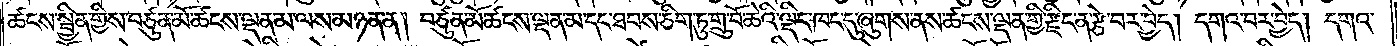ཚངས་སྦྱིན་གྱིས་བཙུན་མོ་ཚངས་ལྡན་མ་ལས་མཉན་ན། བཙུན་མོ་ཚངས་ལྡན་མ་དང་ཐབས་ཅིག་ཏུ་གྲུ་བོ་ཆེའི་ལྡིང་ཁང་དུ་ཞུགས་ནས་ཚངས་ལྡན་གྱི་རྫིང་ན་རྩེ་བར་བྱེད། དགའ་བར་བྱེད། དགའ་
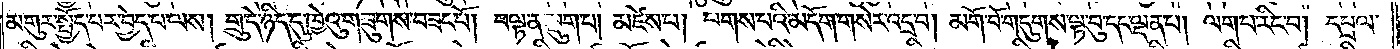མགུར་སྤྱོད་པར་བྱེད་པ་ལས། གྲུ་དེ་ཉིད་དུ་ཁྱེའུ་གཟུགས་བཟང་པོ། བལྟ་ན་སྡུག་པ། མཛེས་པ། པགས་པའི་མདོག་གསེར་འདྲ་བ། མགོ་བོ་གདུགས་ལྟ་བུ་དང་ལྡན་པ། ལག་པ་རིང་བ། དཔྲལ་
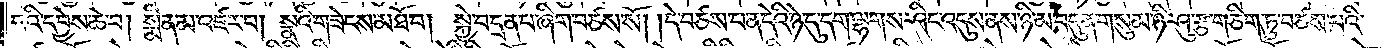བའི་དབྱེས་ཆེ་བ། སྨིན་མ་འཛར་བ། སྣའི་གཟེངས་མཐོ་བ། སྐྱེ་བ་དྲན་པ་ཞིག་བཙས་སོ། །དེ་བཙས་པ་ན་དེའི་ཉེ་དུ་དག་ལྷགས་ཤིང་འདུས་ནས་ཉི་མ་བདུན་གསུམ་ཉི་ཤུ་རྩ་གཅིག་ཏུ་བཙས་པའི་
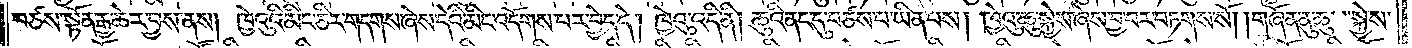བཙས་སྟོན་རྒྱ་ཆེར་བྱས་ནས། ཁྱེའུའི་མིང་ཅིར་གདགས་ཞེས་དེའི་མིང་འདོགས་པར་བྱེད་དེ། ཁྱེའུ་འདི་ནི། ཆུའི་ནང་དུ་བཙས་པ་ཡིན་པས། ཁྱེའུ་ཆུ་སྐྱེས་ཞེས་བྱ་བར་བཏགས་སོ། །གཞོན་ནུ་ཆུ་སྐྱེས་
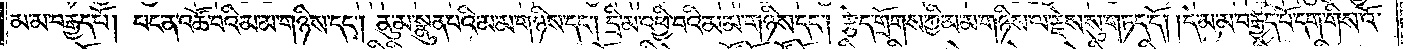མ་མ་བརྒྱད་པོ། པང་ན་འཚོ་བའི་མ་མ་གཉིས་དང༌། ནུ་མ་སྣུན་པའི་མ་མ་གཉིས་དང༌། དྲི་མ་འཕྱི་བའི་མ་མ་གཉིས་དང༌། རྩེད་གྲོགས་ཀྱི་མ་མ་གཉིས་ལ་རྗེས་སུ་གཏད་དོ། །དེ་མ་མ་བརྒྱད་པོ་དག་གིས་འོ་
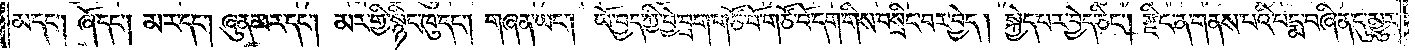མ་དང༌། ཞོ་དང༌། མར་དང༌། ཞུན་མར་དང༌། མར་གྱི་སྙིང་ཁུ་།དང༌། གཞན་ཡང༌། ཡོ་བྱད་ཀྱི་བྱེ་བྲག་གཙོ་བོ་གཙོ་བོ་དག་གིས་བསྲིང་བར་བྱེད། སྐྱེད་པར་བྱེད་ཅིང༌། རྫིང་ན་གནས་པའི་པདྨ་བཞིན་དུ་མྱུར་
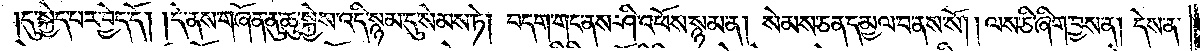།དུ་སྐྱེད་པར་བྱེད་དོ། །དེ་ནས་གཞོན་ནུ་ཆུ་སྐྱེས་འདི་སྙམ་དུ་སེམས་ཏེ། བདག་གང་ནས་ཤི་འཕོས་སྙམ་ན། སེམས་ཅན་དམྱལ་བ་ནས་སོ། །ལས་ཅི་ཞིག་བྱས་ན། དེས་ན་
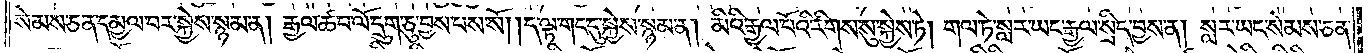སེམས་ཅན་དམྱལ་བར་སྐྱེས་སྙམ་ན། རྒྱལ་ཚབ་ལོ་དྲུག་ཅུ་བྱས་པས་སོ། །ད་ལྟ་གང་དུ་སྐྱེས་སྙམ་ན། མིའི་རྒྱལ་པོའི་རིགས་སུ་སྐྱེས་ཏེ། གལ་ཏེ་སླར་ཡང་རྒྱལ་སྲིད་བྱས་ན། སླར་ཡང་སེམས་ཅན་
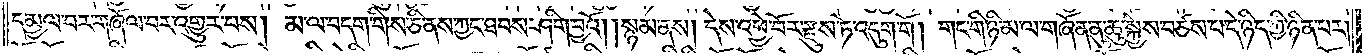དམྱལ་བར་གཞོལ་བར་འགྱུར་བས། མ་ལ་བདག་གིས་ཅི་ནས་ཀྱང་ཐབས་ཤིག་བྱའོ། །སྙམ་ནས། དེས་འཕྱེ་བོར་རྫུས་ཏེ་འདུག་གོ། གང་གི་ཉི་མ་ལ་གཞོན་ནུ་ཆུ་སྐྱེས་བཙས་པ་དེ་ཉིད་ཀྱི་ཉིན་པར་
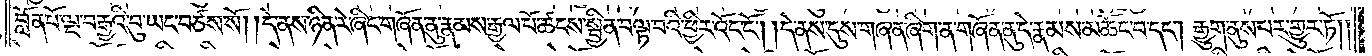བློན་པོ་ལྔ་བརྒྱའི་བུ་ཡང་བཙས་སོ། །དེ་ནས་ཉིན་རེ་ཞིང་གཞོན་ནུ་རྣམས་རྒྱལ་པོ་ཚངས་སྦྱིན་བལྟ་བའི་ཕྱིར་འོང་ངོ༌། །དེ་ནས་དུས་གཞན་ཞིག་ན་གཞོན་ནུ་དེ་རྣམས་མཆོང་བ་དང༌། རྒྱུག་ནུས་པར་གྱུར་ཏོ། །
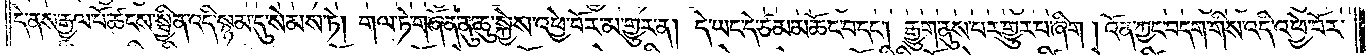དེ་ནས་རྒྱལ་པོ་ཚངས་སྦྱིན་འདི་སྙམ་དུ་སེམས་ཏེ། གལ་ཏེ་གཞོན་ནུ་ཆུ་སྐྱེས་འཕྱེ་བོར་མ་གྱུར་ན། དེ་ཡང་དེ་ཙམ་མཆོང་བ་དང༌། རྒྱུག་ནུས་པར་གྱུར་པ་ཞིག །འོན་ཀྱང་བདག་གིས་འདི་འཕྱེ་བོར་
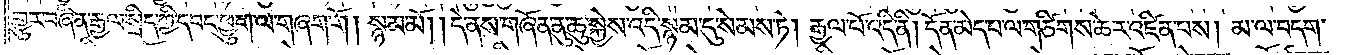གྱུར་བཞིན་རྒྱལ་སྲིད་ཀྱི་དབང་ཕྱུག་ལ་གཞག་གོ། སྙམ་མོ། །དེ་ནས་གཞོན་ནུ་ཆུ་སྐྱེས་འདི་སྙམ་དུ་སེམས་ཏེ། རྒྱལ་པོ་འདི་ནི། དོན་མེད་པ་ལ་གཙིགས་ཆེར་འཛིན་པས། མ་ལ་བདག་
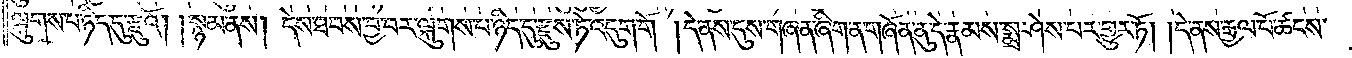ལྐུགས་པ་ཉིད་དུ་རྫུའོ། །སྙམ་ནས། དེས་ཐབས་བྱ་བར་ལྐུགས་པ་ཉིད་དུ་རྫུས་ཏེ་འདུག་གོ །དེ་ནས་དུས་གཞན་ཞིག་ན་གཞོན་ནུ་དེ་རྣམས་སྨྲ་ཤེས་པར་གྱུར་ཏོ། །དེ་ནས་རྒྱལ་པོ་ཚངས་
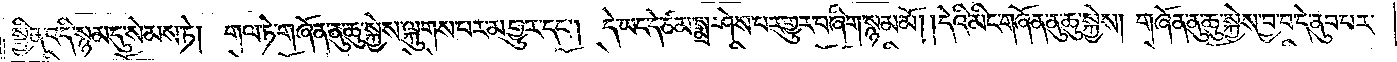སྦྱིན་འདི་སྙམ་དུ་སེམས་ཏེ། གལ་ཏེ་གཞོན་ནུ་ཆུ་སྐྱེས་ལྐུགས་པར་མ་གྱུར་དང༌། དེ་ཡང་དེ་ཙམ་སྨྲ་ཤེས་པར་གྱུར་པ་ཞིག་སྙམ་མོ། །དེའི་མིང་གཞོན་ནུ་ཆུ་སྐྱེས། གཞོན་ནུ་ཆུ་སྐྱེས་བྱ་བ་དེ་ནུབ་པར་
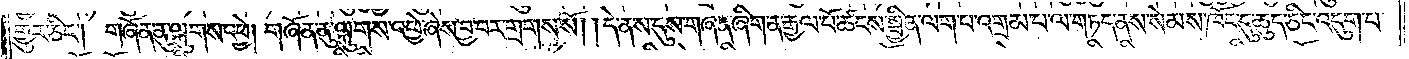གྱུར་ཅིང༌། གཞོན་ནུ་ལྐུགས་འཕྱེ། གཞོན་ནུ་ལྐུགས་འཕྱེ་ཞེས་བྱ་བར་གྲགས་སོ། །དེ་ནས་དུས་གཞན་ཞིག་ན་རྒྱལ་པོ་ཚངས་སྦྱིན་ལག་པ་འགྲམ་པ་ལ་གཏད་ནས་སེམས་ཁོང་དུ་ཆུད་ཅིང་འདུག་པ་
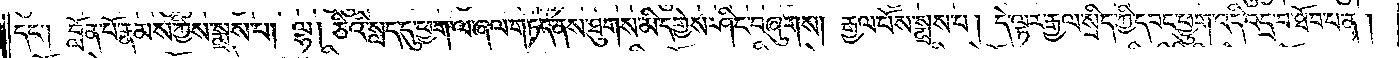དང༌། བློན་པོ་རྣམས་ཀྱིས་སྨྲས་པ། ལྷ། ཅིའི་སླད་དུ་ཕྱག་ལ་ཞལ་གཏད་ནས་ཐུགས་མི་དགྱེས་ཤིང་བཞུགས། །རྒྱལ་པོས་སྨྲས་པ། དེ་ལྟར་རྒྱལ་སྲིད་ཀྱི་དབང་ཕྱུག་འདི་འདྲ་བ་ཐོབ་པ་ན།
